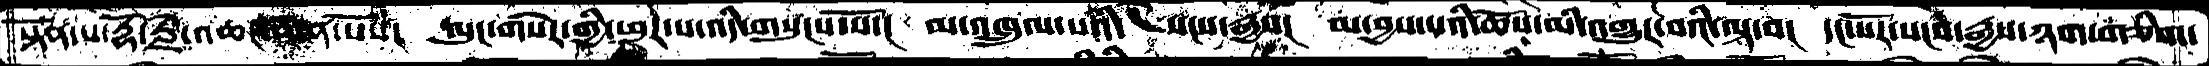སྟོན་པ་རྡོ་རྗེ་འཆང་ཆེན་པོས་།  ལུང་གསེར་གྱི་ཕུར་པ་འདི་གསུངས་སོ་།  མ་འཁྲུལ་པའི་    སངས་རྒྱས།  མ་བྱས་པའི་ཆོས་མི་འགྱུར་བའི་ལྟ་བ།  དང་པོར་སངས་རྒྱས་ཉག་གཅིག་
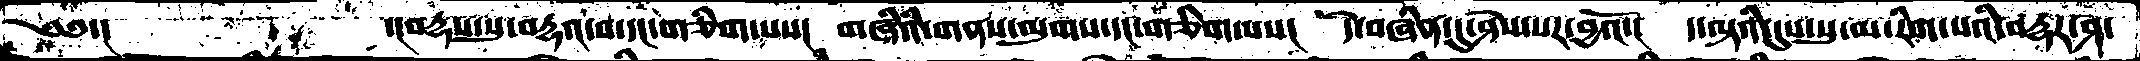༄༅་།        ་།བརྡས་སུ་བརྡའ་བ་དང་གཅིག་པས།  གཞིའི་གནས་ལུགས་དང་གཅིག་པས།  དེ་བཞིན་དུ་ཤེས་པར་བྱའོ་།  ད་ལྟའི་དུས་སུ་མ་རིག་པའི་བརྡར་ཤ་
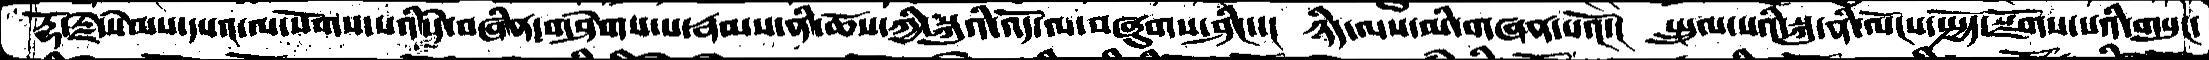རྡོ་རྗེ་སེམས་དཔའ་ལ་སོགས་པའི་དེ་བཞིན་གཤེགས་པ་རྣམས་ནི་ཆོས་ཀྱི་སྐུའི་འོད་ལ་བཞུགས་ཤིང་་།  ཉིད་ལས་མི་གཞན་པའོ་།  སྤྲུལ་པའི་སྐུ་ནི་ལོངས་སྤྱོད་སྫོགས་པའི་གསུང་
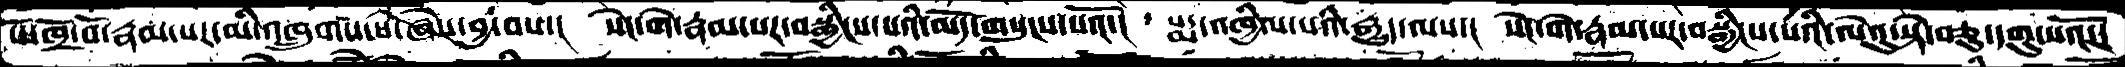པོ་ཁྲོ་བོ་རྣམ་པར་མི་འཁྲུགས་པ་ཞེས་བྱ་བས་།  སེང་གེ་རྣམ་པར་བསྒྱིངས་པའི་མདོ་གསུངས་པའོ་།  པདྨ་འཁྱིལ་པའི་རྒྱུད་ལས་།  སེང་གེ་རྣམ་པར་བསྒྱིངས་པའི་ལེའུ་སྟེ་བཅུ་དགུ་པའོ་།
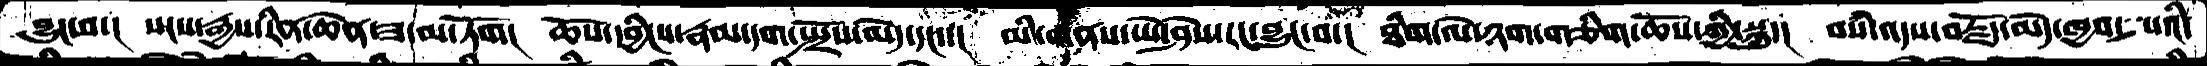བྱུང་བ་།  སངས་རྒྱས་རིན་ཆེན་ཟ་མ་ཏོག།  ཆོས་དབྱིངས་རྣམ་དག་སྤྲོས་མེད་དང་་།  མི་གནས་ཡེ་ཤེས་རང་བྱུང་བ་།  ཐིག་ལེ་ཉག་གཅིག་ཆོས་ཀྱི་སྐུ་།  བསཾ་འདས་བརྗོད་མེད་ཁྱབ་པའི་
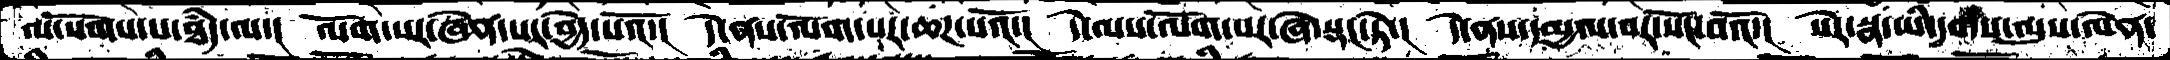ལ་སོགས་པ་ཐཾད་ལ་།  ལོག་པར་ཞེན་པར་བྱེད་པའོ་།  དེ་ནས་ལོག་པར་ཆཌ་པའོ་།  དེ་ལས་ལོག་པར་ཞེ་སྡང་ཏེ་།  དེ་ནས་དམྱལ་བར་སོང་བའོ་།  སེར་སྣ་ཡི་དྭགས་ལུས་ལེན་
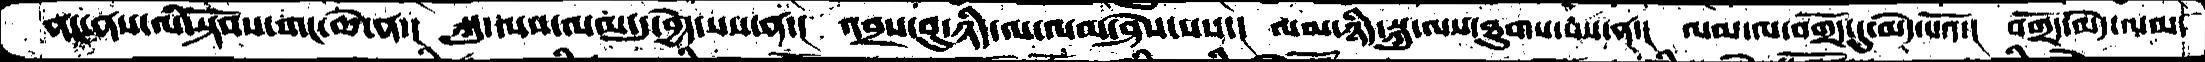ནང་ནས་ལི་སྟོབས་གང་ཆེ་ན་།  སྐུ་ལས་ལམ་དུ་བྱེད་པས་ན་།  འབྲས་བུ་ཉིད་ལ་ལམ་ཤེས་པས་།  ལམ་ཉིད་སྐུ་ལས་ཐུགས་བས་ན་།   ལམ་ལ་བགྲོད་དུ་མེད་པའོོ་།  བགྲོད་མེད་ལམ་
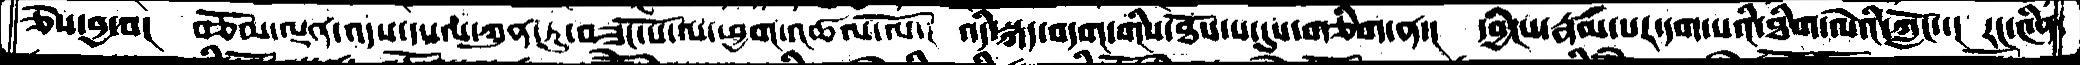ཅེས་བྱ་བ།  བཅོམ་ལྡན་འདས་དཔལ་ཀུན་ཏུ་བཟང་པོ་ལ་ཕྱག་འཚལ་ལོ་།  འདི་སྐད་བདག་གིས་ཐོས་པ་དུས་གཅིག་ན་།  དབྱིངས་རྣམ་པར་དག་པའི་ཐིག་ལེའི་ཀློང་་།  རང་༤ིན་
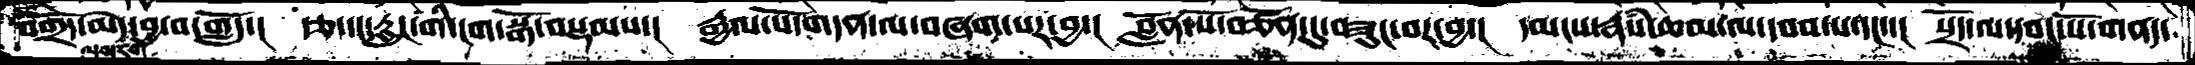བགྲོད་མེད་ལས་དགེ་བྱ་བ་གློད་། རྩ་དང་རླུང་གི་ངག་སྒོ་བསྡམས་། རྒྱལ་པོ་གདན་ལ་བཞག་པར་བྱ་། བློན་པོ་བཙོན་དུ་བཟུང་བར་བྱ་། དམངས་རྣཾས་ཆམ་ལ་དབབ་པ་དང་་། སྲོད་ལ་དབང་པོ་གནད་
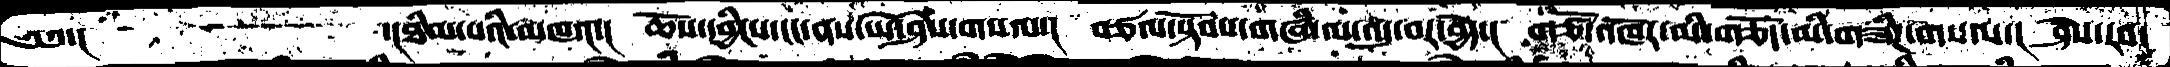༄༅་།       ་།ཐིམ་པའི་མཁའ་།  ཆོས་དབྱིངས་ངང་ནས་ཡེ་ཤེས་གསལ་།  བཙལ་སྟོབས་གཞི་ལ་འདུ་བར་བྱེད་།  གཙོ་འཁོར་མི་གཅོད་མི་གཟིགས་གསལ་།  ཤེས་རབ་
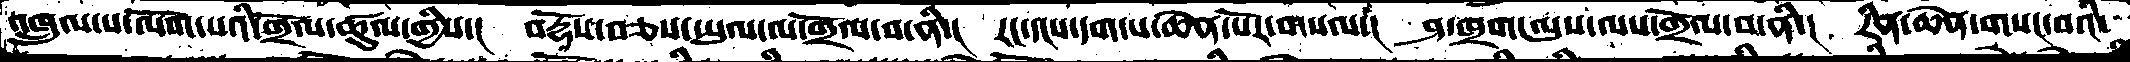འཁྲུལ་པ་ལོག་པའི་གྲོལ་ཚུལ་གྱིས་།  བརྡོས་བཅས་ཡུལ་ལ་གྲོལ་བ་ནི་།  རང་དངས་དག་པ་ཆེན་པོར་གསལ་།  ཤ་ཁྲག་ལུས་ལས་གྲོལ་བ་ནི་།  རིན་ཆེན་གསང་བའི་
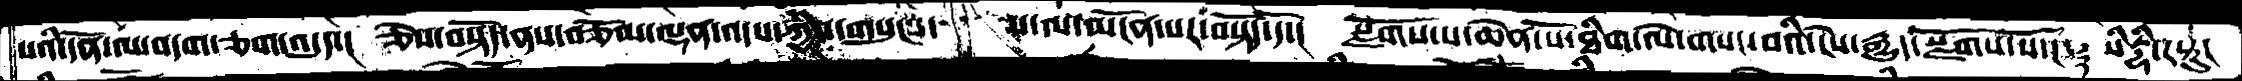པའི་དོན་ལ་བདག་ཅག་འདུད་། ཅེས་བསྟོད་ནས་བཅོམ་ལྡན་འདས་ཀྱིས་གསུངས་།  ས་ལ་མངོན་པར་བསྟོད་དོ་།  སྫོགས་པ་ཆེན་པོ་ཐིག་ལེ་གསང་བའི་ངེས་རྒྱུད་སྫོགས་སོ་། ༈ སིཏྡྷི་རསྟུ།
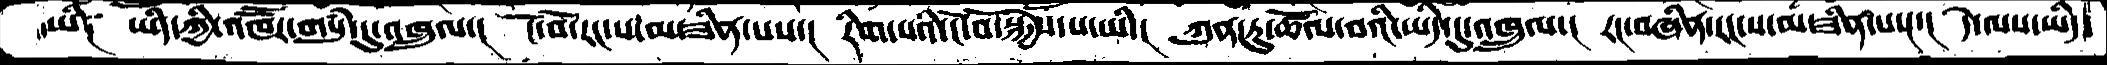ཡི༑ ཡིད་ཀྱི་འཁཽར་གསུཾ་དུ་འཁྲུལ་།  ངོ་བོ་རང་ས་མ་ཟིན་པས་།  རིག་པའི་ངོ་བོ་སྐྱེས་པ་ཡི་།  ཀུན་ཏུ་ཚོལ་བའི་ཡིད་དུ་འཁྲུལ་།  རང་བཞིན་རང་ས་མ་ཟིན་པས་།  དེ་ལས་ཡིད་
